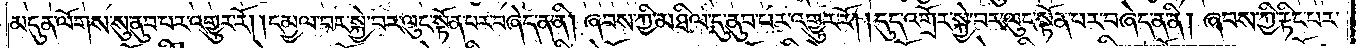མདུན་ལོགས་སུ་ནུབ་པར་འགྱུར་རོ། །དམྱལ་བར་སྐྱེ་བར་ལུང་སྟོན་པར་བཞེད་ན་ནི། ཞབས་ཀྱི་མཐིལ་དུ་ནུབ་པར་འགྱུར་རོ། །དུད་འགྲོར་སྐྱེ་བར་ལུང་སྟོན་པར་བཞེད་ན་ནི། ཞབས་ཀྱི་རྟིང་པར་
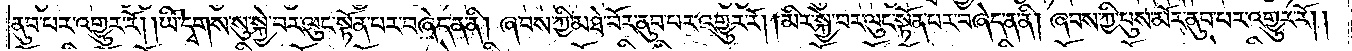ནུབ་པར་འགྱུར་རོ། །ཡི་དྭགས་སུ་སྐྱེ་བར་ལུང་སྟོན་པར་བཞེད་ན་ནི། ཞབས་ཀྱི་མཐེ་བོར་ནུབ་པར་འགྱུར་རོ། །མིར་སྐྱེ་བར་ལུང་སྟོན་པར་བཞེད་ན་ནི། ཞབས་ཀྱི་པུས་མོར་ནུབ་པར་འགྱུར་རོ། །
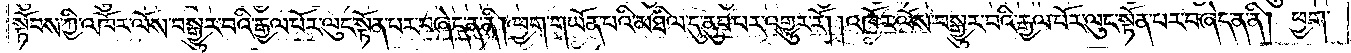སྟོབས་ཀྱི་འཁོར་ལོས་བསྒྱུར་བའི་རྒྱལ་པོར་ལུང་སྟོན་པར་བཞེད་ན་ནི། ཕྱག་གཡོན་པའི་མཐིལ་དུ་ནུབ་པར་འགྱུར་རོ། །འཁོར་ལོས་བསྒྱུར་བའི་རྒྱལ་པོར་ལུང་སྟོན་པར་བཞེད་ན་ནི། ཕྱག་
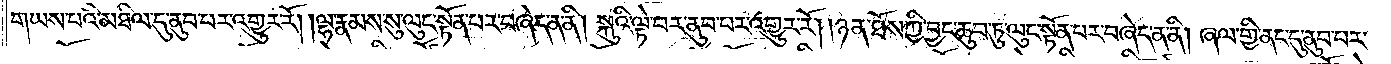གཡས་པའི་མཐིལ་དུ་ནུབ་པར་འགྱུར་རོ། །ལྷ་རྣམས་སུ་ལུང་སྟོན་པར་བཞེད་ན་ནི། སྐུའི་ལྟེ་བར་ནུབ་པར་འགྱུར་རོ། །ཉན་ཐོས་ཀྱི་བྱང་ཆུབ་ཏུ་ལུང་སྟོན་པར་བཞེད་ན་ནི། ཞལ་གྱི་ནང་དུ་ནུབ་པར་
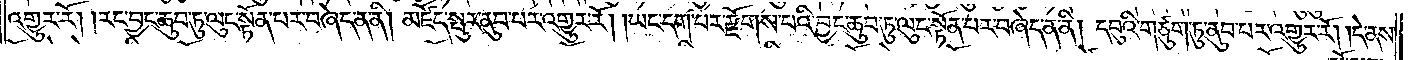འགྱུར་རོ། །རང་བྱང་ཆུབ་ཏུ་ལུང་སྟོན་པར་བཞེད་ན་ནི། མཛོད་སྤུར་ནུབ་པར་འགྱུར་རོ། །ཡང་དག་པར་རྫོགས་པའི་བྱང་ཆུབ་ཏུ་ལུང་སྟོན་པར་བཞེད་ན་ནི། དབུའི་གཙུག་ཏུ་ནུབ་པར་འགྱུར་རོ། །དེ་ནས་
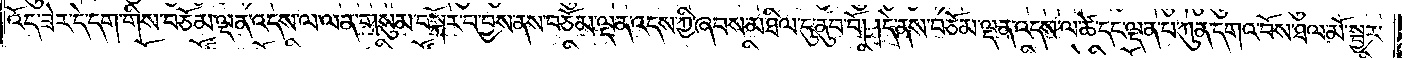འོད་ཟེར་དེ་དག་གིས་བཅོམ་ལྡན་འདས་ལ་ལན་གསུམ་བསྐོར་བ་བྱས་ནས་བཅོམ་ལྡན་འདས་ཀྱི་ཞབས་མཐིལ་དུ་ནུབ་བོ། །དེ་ནས་བཅོམ་ལྡན་འདས་ལ་ཚེ་དང་ལྡན་པ་ཀུན་དགའ་བོས་ཐལ་མོ་སྦྱར་
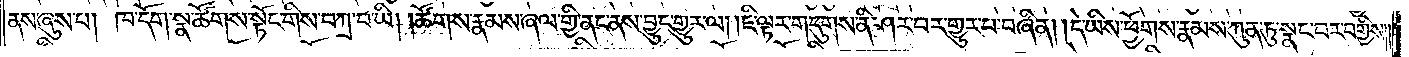ནས་ཞུས་པ། ཁ་དོག་སྣ་ཚོགས་སྟོང་གིས་བཀྲ་བ་ཡི། །ཚོགས་རྣམས་ཞལ་གྱི་ནང་ནས་བྱུང་གྱུར་ལ། །ཇི་ལྟར་གདུགས་ནི་ཤར་བར་གྱུར་པ་བཞིན། །དེ་ཡིས་ཕྱོགས་རྣམས་ཀུན་ཏུ་སྣང་བར་བགྱིས༎
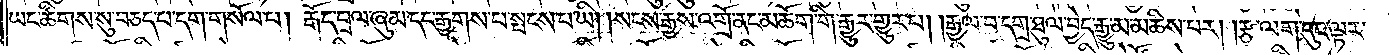ཡང་ཚིགས་སུ་བཅད་པ་དག་གསོལ་པ། རྒོད་བྲལ་ཞུམ་དང་རྒྱགས་པ་སྤངས་པ་ཡི། །སངས་རྒྱས་འགྲོ་ནང་མཆོག་གི་རྒྱུར་གྱུར་པ། །རྒྱལ་བ་དགྲ་ཐུལ་བྱེད་རྒྱུ་མ་མཆིས་པར། །རྩ་ལག་དུང་ལྟར་
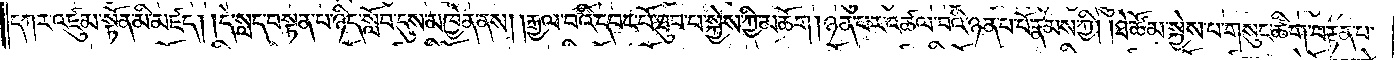དཀར་འཛུམ་སྟོན་མི་མཛད། །དེ་སླད་བསྟན་པ་ཉིད་སློབ་དུས་མཁྱེན་ནས། །རྒྱལ་བའི་དབང་པོ་ཐུབ་པ་སྐྱེས་ཀྱི་མཆོག །ཉན་པར་འཚལ་བའི་ཉན་པ་པོ་རྣམས་ཀྱི། །ཐེ་ཚོམ་སྐྱེས་པ་གསུང་ཚིག་བརྟན་པ་
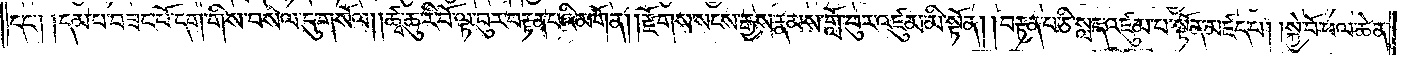དང༌། །དམ་པ་བཟང་པོ་དག་གིས་བསལ་དུ་གསོལ། །ཚྭ་ཆུ་རི་བོ་ལྟ་བུར་བརྟན་པའི་མགོན། །རྫོགས་སངས་རྒྱས་རྣམས་གློ་བུར་འཛུམ་མི་སྟོན། །བརྟན་པ་ཅི་སླད་འཇུམ་པ་སྟོན་མཛད་པ། །སྐྱེ་བོ་ཕལ་ཆེན་
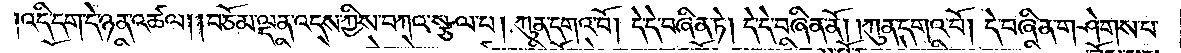འདི་དག་དེ་ཉན་འཚལ། །བཅོམ་ལྡན་འདས་ཀྱིས་བཀའ་སྩལ་པ། ཀུན་དགའ་བོ། དེ་དེ་བཞིན་ཏེ། དེ་དེ་བཞིན་ནོ། །ཀུན་དགའ་བོ། དེ་བཞིན་གཤེགས་པ་
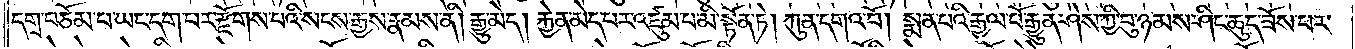དགྲ་བཅོམ་པ་ཡང་དག་པར་རྫོགས་པའི་སངས་རྒྱས་རྣམས་ནི། རྒྱུ་མེད། རྐྱེན་མེད་པར་འཛུམ་པ་མི་སྟོན་ཏེ། ཀུན་དགའ་བོ། སྨན་པའི་རྒྱལ་པོ་རྒྱུན་ཤེས་ཀྱི་བུ་ཉམས་ཤིང་ཆུད་ཟོས་པར་
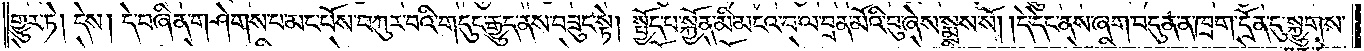གྱུར་ཏེ། དེས། དེ་བཞིན་གཤེགས་པ་མང་པོས་བཀུར་བའི་གདུང་རྒྱུད་ནས་བཟུང་སྟེ། སྤྱོད་པ་སྐྱོན་མི་མངའ་བ་ལ་བྲན་མོའི་བུ་ཞེས་སྨྲས་སོ། །དེ་དེང་ནས་ཞག་བདུན་ན་ཁྲག་དྲོན་དུ་སྐྱུགས་
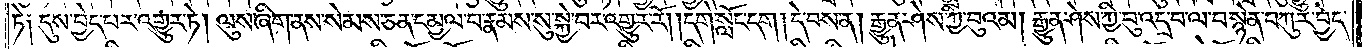ཏེ༑ དུས་བྱེད་པར་འགྱུར་ཏེ། ལུས་ཞིག་ནས་སེམས་ཅན་དམྱལ་བ་རྣམས་སུ་སྐྱེ་བར་འགྱུར་རོ། །དགེ་སློང་དག །དེ་བས་ན། རྒྱུན་ཤེས་ཀྱི་བུའམ། རྒྱུན་ཤེས་ཀྱི་བུ་འདྲ་བ་ལ་བསྙེན་བཀུར་བྱེད་
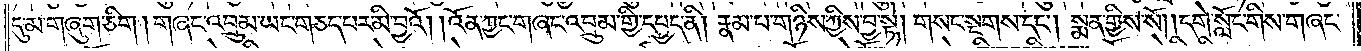དུ་མ་གཞུག་ཅིག །གཞང་འབྲུམ་ཡང་གཅད་པར་མི་བྱའོ། །འོན་ཀྱང་གཞང་འབྲུམ་གྱི་དཔྱད་ནི། རྣམ་པ་གཉིས་ཀྱིས་བྱ་སྟེ། གསང་སྔགས་དང༌། སྨན་གྱིས་སོ། །དགེ་སློང་གིས་གཞང་
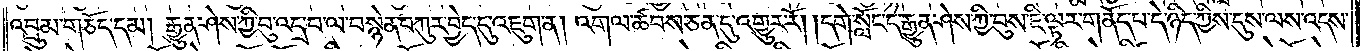འབྲུམ་གཅོད་དམ། རྒྱུན་ཤེས་ཀྱི་བུ་འདྲ་བ་ལ་བསྙེན་བཀུར་བྱེད་དུ་འཇུག་ན། འགལ་ཚབས་ཅན་དུ་འགྱུར་རོ། །དགེ་སློང་དེ་རྒྱུན་ཤེས་ཀྱི་བུས་ཇི་ལྟར་གནོད་པ་དེ་ཉིད་ཀྱིས་དུས་ལས་འདས་
